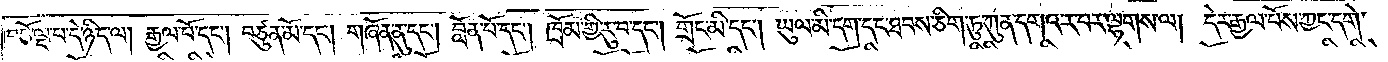བཅོ་ལྔ་པ་དེ་ཉིད་ལ། རྒྱལ་པོ་དང༌། བཙུན་མོ་དང༌། གཞོན་ནུ་དང༌། བློན་པོ་དང༌། ཁྲོམ་གྱི་རུ་བ་དང༌། གྲོང་མི་དང༌། ཡུལ་མི་དག་དང་ཐབས་ཅིག་ཏུ་ཀུན་དགའ་ར་བར་ལྷགས་ལ། དེར་རྒྱལ་པོས་ཀྱང་དགེ་
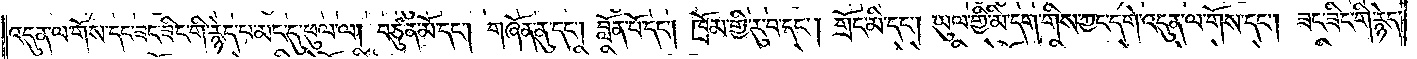འདུན་ལ་གོས་དང་ཟང་ཟིང་གི་རྙེད་པ་མང་དུ་ཕུལ་ལ། བཙུན་མོ་དང༌། གཞོན་ནུ་དང༌། བློན་པོ་དང༌། ཁྲོམ་གྱི་རུ་བ་དང༌། གྲོང་མི་དང༌། ཡུལ་གྱི་མི་དག་གིས་ཀྱང་དགེ་འདུན་ལ་གོས་དང༌། ཟང་ཟིང་གི་རྙེད་
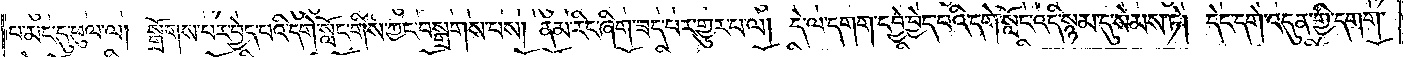པ་མང་དུ་ཕུལ་ལ། སྒྲོགས་པར་བྱེད་པའི་དགེ་སློང་གིས་ཀྱང་བསྒྲགས་པས། ནམ་རིང་ཞིག་ཟད་པར་གྱུར་པ་ལ། དེ་ལ་དགག་དབྱེ་བྱེད་པའི་དགེ་སློང་འདི་སྙམ་དུ་སེམས་ཏེ། དེང་དགེ་འདུན་གྱི་དགག་
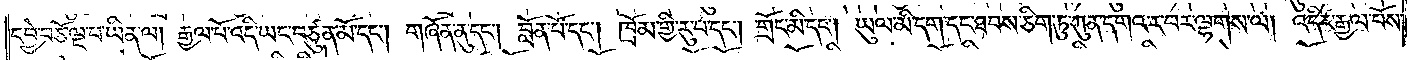དབྱེ་བཅོ་ལྔ་པ་ཡིན་ལ། རྒྱལ་པོ་འདི་ཡང་བཙུན་མོ་དང༌། གཞོན་ནུ་དང༌། བློན་པོ་དང༌། ཁྲོམ་གྱི་རུ་བ་དང༌། གྲོང་མི་དང༌། ཡུལ་མི་དག་དང་ཐབས་ཅིག་ཏུ་ཀུན་དགའ་ར་བར་ལྷགས་ལ། འདིར་རྒྱལ་པོས་
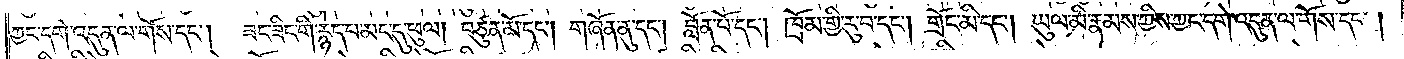ཀྱང་དགེ་འདུན་ལ་གོས་དང༌།<gap>ཟང་ཟིང་གི་རྙེད་པ་མང་དུ་ཕུལ། བཙུན་མོ་དང༌། གཞོན་ནུ་དང༌། བློན་པོ་དང༌། ཁྲོམ་གྱི་རུ་བ་དང༌། གྲོང་མི་དང༌། ཡུལ་མི་རྣམས་ཀྱིས་ཀྱང་དགེ་འདུན་ལ་གོས་དང༌།
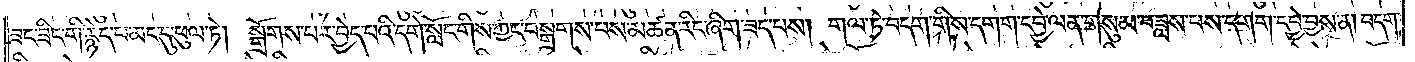ཟང་ཟིང་གི་རྙེད་པ་མང་དུ་ཕུལ་ཏེ། སྒྲོགས་པར་བྱེད་པའི་དགེ་སློང་གིས་ཀྱང་བསྒྲགས་པས་མཚན་རིང་ཞིག་ཟད་པས། གལ་ཏེ་བདག་གིས་དགག་དབྱེ་ལན་གསུམ་བཟླས་པས་དགག་དབྱེ་བྱས་ན། བདག་
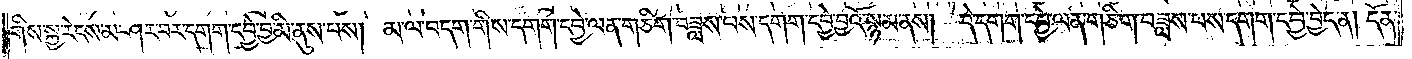གིས་སྐྱ་རེངས་མ་ཤར་བར་དགག་དབྱེ་བྱ་མི་ནུས་པས། མ་ལ་བདག་གིས་དགག་དབྱེ་ལན་གཅིག་བཟླས་པས་དགག་དབྱེ་བྱའོ་སྙམ་ནས། དེ་དགག་དབྱེ་ལེན་གཅིག་བཟླས་པས་དགག་དབྱེ་བྱེད་ན། དོན་
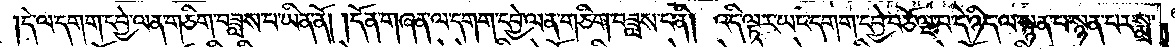དེ་ལ་དགག་དབྱེ་ལན་གཅིག་བཟླས་པ་ཡིན་ནོ། །དོན་གཞན་ལ་དགག་དབྱེ་ལན་གཅིག་བཟླས་པ་ནི། འདི་ལྟར་ཡང་དགག་དབྱེ་བཅོ་ལྔ་པ་དེ་ཉིད་ལ་སྙན་པ་སྙན་པར་སྨྲ་
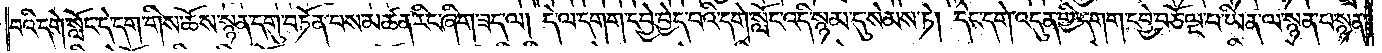བའི་དགེ་སློང་དེ་དག་གིས་ཆོས་སྙན་དགུ་བཏོན་པས་མཚན་རིང་ཞིག་ཟད་ལ། དེ་ལ་དགག་དབྱེ་བྱེད་པའི་དགེ་སློང་འདི་སྙམ་དུ་སེམས་ཏེ། དེང་དགེ་འདུན་གྱི་དགག་དབྱེ་བཅོ་ལྔ་པ་ཡིན་ལ་སྙན་པ་སྙན་
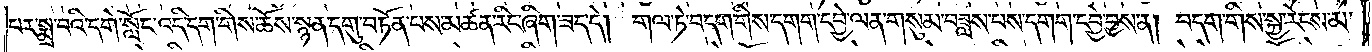པར་སྨྲ་བའི་དགེ་སློང་འདི་དག་གིས་ཆོས་སྙན་དགུ་བཏོན་པས་མཚན་རིང་ཞིག་ཟད་དེ། གལ་ཏེ་བདག་གིས་དགག་དབྱེ་ལན་གསུམ་བཟླས་པས་དགག་དབྱེ་བྱས་ན། བདག་གིས་སྐྱ་རེངས་མ་
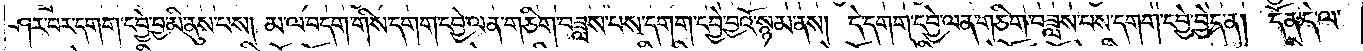ཤར་བར་དགག་དབྱེ་བྱ་མི་ནུས་པས། མ་ལ་བདག་གིས་དགག་དབྱེ་ལན་གཅིག་བཟླས་པས་དགག་དབྱེ་བྱའོ་སྙམ་ནས། དེ་དགག་དབྱེ་ལན་གཅིག་བཟླས་པས་དགག་དབྱེ་བྱེད་ན། དོན་དེ་ལ་
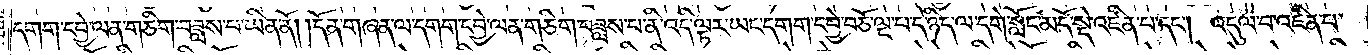དགག་དབྱེ་ལན་གཅིག་བཟླས་པ་ཡིན་ནོ། །དོན་གཞན་ལ་དགག་དབྱེ་ལན་གཅིག་བཟླས་པ་ནི་འདི་ལྟར་ཡང་དགག་དབྱེ་བཅོ་ལྔ་པ་དེ་ཉིད་ལ་དགེ་སློང་མདོ་སྡེ་འཛིན་པ་དང༌། འདུལ་བ་འཛིན་པ་
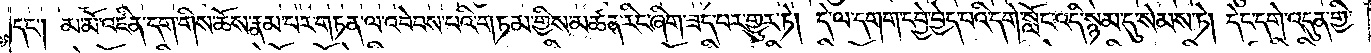དང༌། མ་མོ་འཛིན་ངག་གིས་ཆོས་རྣམ་པར་གཏན་ལ་འབེབས་པའི་གཏམ་གྱིས་མཚན་རིང་ཞིག་ཟད་པར་གྱུར་ཏེ། དེ་ལ་དགག་དབྱེ་བྱེད་པའི་དགེ་སློང་འདི་སྙམ་དུ་སེམས་ཏེ། དེང་དགེ་འདུན་གྱི་
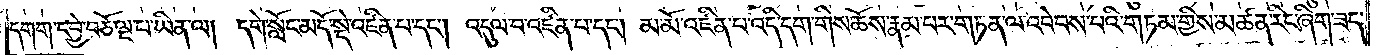དགག་དབྱེ་བཅོ་ལྔ་པ་ཡིན་ལ། དགེ་སློང་མདོ་སྡེ་འཛིན་པ་དང༌། འདུལ་བ་འཛིན་པ་དང༌། མ་མོ་འཛིན་པ་འདི་དག་གིས་ཆོས་རྣམ་པར་གཏན་ལ་འབེབས་པའི་གཏམ་གྱིས་མཚན་རིང་ཞིག་ཟད་
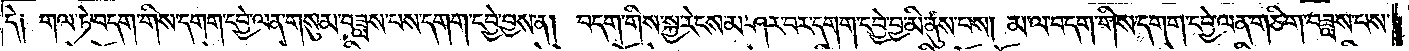དེ༏ གལ་ཏེ་བདག་གིས་དགག་དབྱེ་ལན་གསུམ་བཟླས་པས་དགག་དབྱེ་བྱས་ན། བདག་གིས་སྐྱ་རེངས་མ་ཤར་བར་དགག་དབྱེ་བྱ་མི་ནུས་པས། མ་ལ་བདག་གིས་དགག་དབྱེ་ལན་གཅིག་བཟླས་པས་
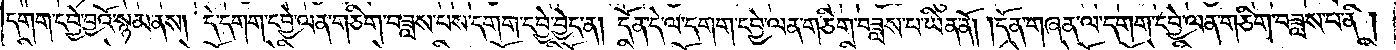དགག་དབྱེ་བྱའོ་སྙམ་ནས། དེ་དགག་དབྱེ་ལན་གཅིག་བཟླས་པས་དགག་དབྱེ་བྱེད་ན། དོན་དེ་ལ་དགག་དབྱེ་ལན་གཅིག་བཟླས་པ་ཡིན་ནོ། །དོན་གཞན་ལ་དགག་དབྱེ་ལན་གཅིག་བཟླས་པ་ནི།
